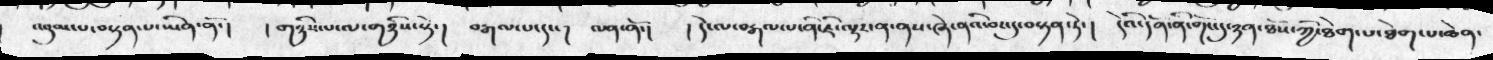འབུམ་པ་བསྟན་པ་ཡིན་ནོ་།   །གཉིས་པ་ལ་གཉིས་སྟེ་།   བརྒལ་པ་དང་། ལན་ནོ་། །དེ་ལ་བརྒལ་པ་ནི་ཇི་ལྟར་ན་ནས་ཞེ་ནའི་བར་དུ་བསྟན་ཏེ་།  དེའི་དོན་ནི་གོང་དུ་ཉན་ཐོས་ཀྱི་ཐེག་པ་ཐེག་པ་ཆེན་
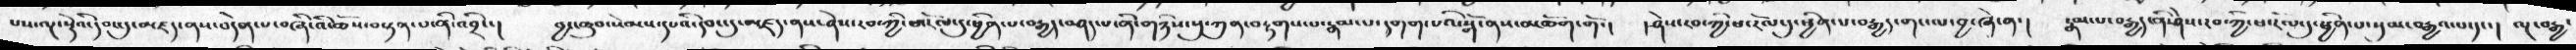པས་ལྔ་སྡེའི་དབང་དུ་མཛད་ནས་བདེན་པ་བཞི་འི་ཆོས་བསྟན་པ་ནི་འབྲིང་།   བྱང་ཆུབ་སེམས་དཔའི་དབང་དུ་མཛད་ནས་ཤེས་རབ་ཀྱི་ཕ་རོལ་དུ་ཕྱིན་པ་བརྒྱད་བཤད་པ་ནི་གཉིས་སུ་ཀུན་བརྟགས་པ་རྣམ་པ་དགག་པའི་སྒོ་ནས་མཆོག་གོ་།  །ཤེས་རབ་ཀྱི་ཕ་རོལ་དུ་ཕྱིན་པ་བརྒྱད་གང་ལ་བྱ་ཞེ་ན་།    རྣམ་པ་བརྒྱད་ནི་ཤེས་རབ་ཀྱི་ཕ་རོལ་དུ་ཕྱིན་པ་སུམ་བརྒྱའ་པ་དང་།   ལྔ་བརྒྱ་
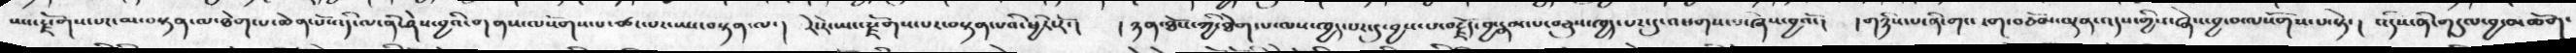པས་རྫོགས་པར་མ་བསྟན་ལ་ཐེག་པ་ཆེན་པོས་དེ་ལ་ནི་ཉེས་བྱའི་གནས་ལསོགས་པ་ཚང་ཡང་བསྟན་ལ་།  རེ་རེ་ཡང་རྫོགས་པར་བསྟན་པའི་ཕྱིར་རོ་།  །ཉན་ཐོས་ཀྱི་ཐེག་པ་ལས་ཁྱད་པར་དུ་བྱས་པ་བརྗོད་བྱ་རྣམ་པ་བཅུས་ཁྱད་པར་དུ་འཕགས་པ་ཞེས་བྱའོ་།  །གཉིས་པ་ནི་གང་དག་བཅོམ་ལྡན་འདས་གྱིས་ཞེས་བྱ་བ་ལསོགས་པ་སྟེ་། བདེས་ནི་གདུལ་བྱ་མཆོག་
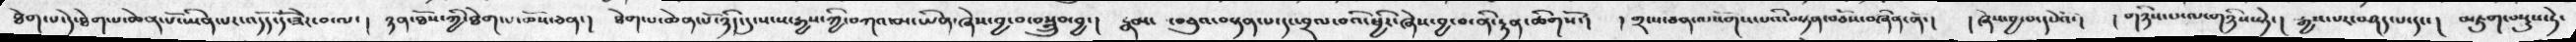ཐེག་པ་དེ་ཐེག་པ་ཆེན་པོ་ཡིན་པར་འདོད་དོ་ཟེར་བ་ལ་།  ཉན་ཐོས་ཀྱི་ཐེག་པ་ཆོས་ཅན་།  ཐེག་པ་ཆེན་པོ་ཉིད་དུ་སངས་རྒྱས་ཀྱི་བཀའ་མ་ཡིན་ཞེས་བྱ་བ་བསྒྲུབ་བྱ་།   རྣམ ་བཅུའ་བསྟན་པ་དང་བྲལ་བའི་ཕྱིར་ཞེས་བྱ་བ་ནི་རྟན་ཚིགསོ་།   །གྲངས་ཅན་ལསོགས་པའི་བསྟན་བཅོས་བཞིན་ནོ་།  །ཞེས་བྱ་བ་དཔེའོ་།   ། གཉིས་པ་ལ་གཉིས་སྟེ་།  རྒྱས་པར་བཤད་པ་དང་།  མཇུག་བསྡུས་དེ་
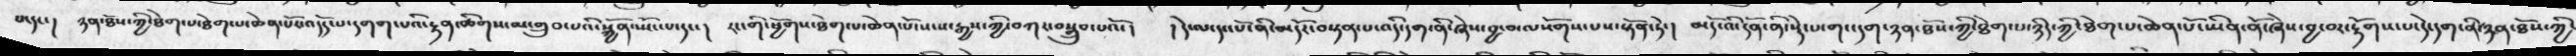པ་དང་།   ཉན་ཐོས་ཀྱི་ཐེག་པ་ཐེག་པ་ཆེན་པོར་འདོད་པ་དགག་པའི་རྟན་ཚིགས་མ་གྲུབ་པའི་སྐྱོན་སྤོང་པ་དང་།  རང་གི་ཕྱོགས་ཐེག་པ་ཆེན་པོ་སངས་རྒྱས་ཀྱི་བཀའ་བསྒྲུབ་པའོ་།   །དེ་ལ་དང་པོ་ནི་མདོར་བསྟན་པ་འདི་དག་ནི་ཞེས་བྱ་བ་ལསོགས་པས་སྟོན་དེ་།  མདོ་འི་དོན་ནི་སྡེ་པ་གང་དག་ཉན་ཐོས་ཀྱི་ཐེག་པ་ཉིད་ཀྱི་ཐེག་པ་ཆེན་པོ་ཡིན་ནོ་ཞེས་བྱ་བར་རྟོགས་པ་དེ་དག་ནི་ཉན་ཐོས་ཀྱི་
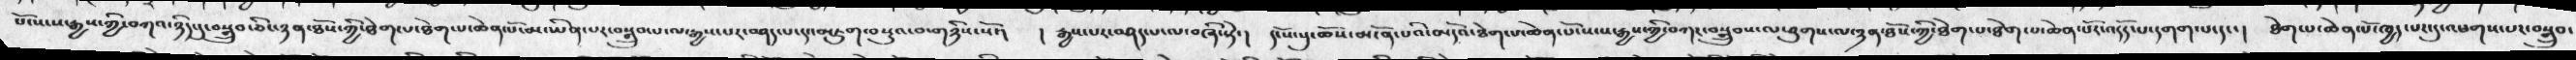པོ་སངས་རྒྱས་ཀྱི་བཀའ་ཉིད་དུ་བསྒྲུབ་ཅིང་ཉན་ཐོས་ཀྱི་ཐེག་པ་ཐེག་པ་ཆེན་པོ་མ་ཡིན་པར་བསྒྲུབ་པ་ལ་རྒྱས་པར་བཤད་པ་དང་འཇུག་བསྡུའ་བ་གཉིས་སོ་།     །རྒྱས་པར་བཤད་པ་བཞི་སྟེ་།  དངོས་སུ་ཆོས་མངོན་པའི་མདོའ་ཐེག་པ་ཆེན་པོ་སངས་རྒྱས་ཀྱི་བཀཌ་བསྒྲུབས་ལཕུགས་ལ་ཉན་ཐོས་ཀྱི་ཐེག་པ་ཆེན་པོར་འདོད་པ་དགག་པ་དང་།   ཐེག་པ་ཆེན་པོ་ཁྱད་པར་དུ་འཕགས་པར་བསྒྲུབ་
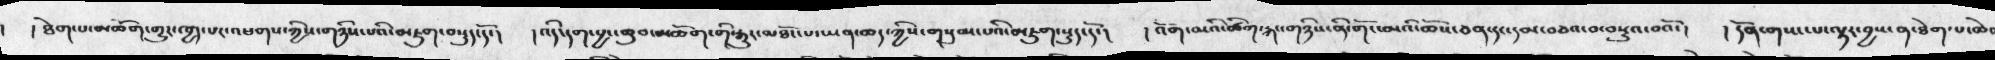། ཐེག་པ་མཆོག་གྱུར་ཁྱད་པར་འཕགས་ཀྱིས་གཉིས་པའི་མཇུག་བསྡུད་དོ་།   །འདི་དག་བྱང་ཆུབ་མཆོག་གི་རྒྱུར་མཐོང་པ་ཡན་ཆད་ཀྱིས་གསུམ་པའི་མཇུག་སྡུད་དོ་།   །འོག་མའི་ཚིག་རྐང་གཉིས་ནི་གོང་མའི་ཆོས་ཅན་དང་དམ་བཅའ་བ་བསྡུའ་བའོ་།   །དོན་གསང་པ་ལྟར་བྱས་ན་ཐེག་པ་ཆེ
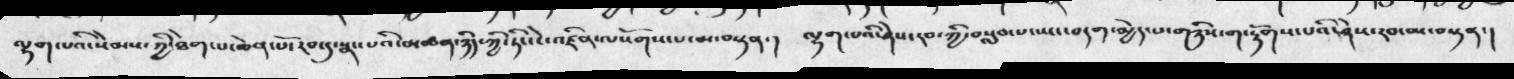ལྷག་པའི་སེམས་ཀྱི་ཐེག་པ་ཆེན་པོ་རབ་དུ་སྣང་པའི་མཚན་ཉིད་ཀྱི་ཏིང་ངེ་འཛིན་ལསོགས་པ་མ་བསྟན་།  ལྷག་པའི་ཤེས་རབ་ཀྱི་བསླབ་པ་ཡང་བདག་མྱེད་པ་གཉིས་ག་རྟོགས་པའི་ཤེས་རབ་མ་བསྟན་།
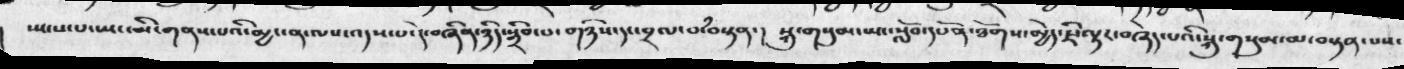སྤངས་པ་ཡང་མི་གནས་པའི་མྱ་ངན་ལས་འདས་པ་དེ་བཞིན་ཉིད་སྒྲིབ་པ་གཉིས་དང་བྲལ་བཾ་བསྟན་།  སྐུ་གསུམ་ཡང་སློབ་དཔོན་ཐོགས་མྱེད་ཇི་ལྟར་བཞེད་པའི་སྐུ་གསུམ་མ་བསྟན་པས་
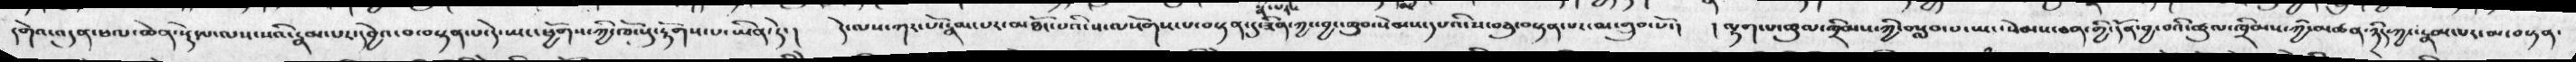དགེའ་འདུན་ཕལ་ཆེན་སྡེ་ལ་ལས་པའི་རྣམ་པར་དབྱེའ་བ་བསྟན་པ་དེ་ཡང་ཕྱོགས་ཀྱི་ཁོངསུ་རྟོགས་པ་ཡིན་ཏེ་།     དེ་ལས་ཀར་པོ་རྣམ་པར་མཐོང་པའི་ས་ལསོགས་པ་བསྟན་དུ་ཟིན་ཀྱང་བྱང་ཆུབ་སེམས་དཔའི་ས་བཅུ་བསྟན་པར་མ་གྲུབ་པོ་།  ། ལྷག་པ་ཚུལ་ཁྲིམས་ཀྱི་བསླབ་པ་ཡང་སེམས་ཅན་ཀྱི་དོན་བྱ་བའི་ཚུལ་ཁྲིམ་ཀྱི་མཚན་ཉིད་ཀྱང་རྣམ་པར་མ་བསྟན་
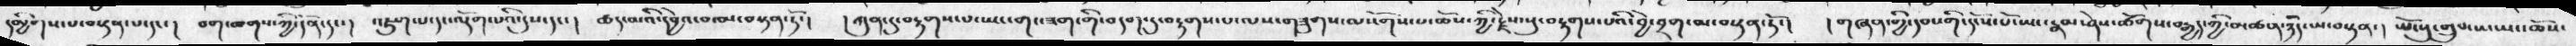དམྱིགས་པ་བསྟན་པ་དང་།   བག་ཆགས་ཀྱི་དོན་དང་།  འཇུག་པ་དང་ལྡོག་པའི་དུས་དང་།  ཚད་མའི་དབྱེའ་བ་མ་བསྟན་དོ་།  །ཀུན་དུ་བརྟགས་པ་ཡང་གང་ཟག་གི་བདག་དུ་བརྟགས་པ་ལས་གཟུགས་ལསོགས་པ་ཆོས་ཀྱི་རྗེས་སུ་བརྟགས་པའི་བྱེ་བྲག་མ་བསྟན་དོ་།   ། གཞན་གྱི་དབང་གི་དངོས་པོ་ཡང་རྣམ་ཤེས་ཚོགས་བརྒྱད་ཀྱི་མཚན་ཉིད་མ་བསྟན་།  ཡོངསུ་གྲུབ་པ་ཡང་ཆོས་
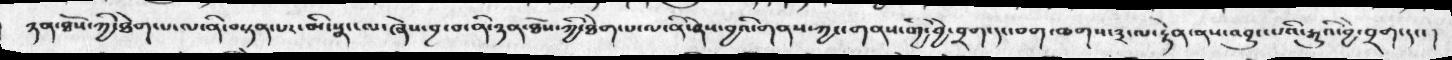ཉན་ཐོས་ཀྱི་ཐེག་པ་ལ་ནི་བསྟན་པར་མི་སྣང་ལ་ཞེས་བྱ་བ་ནི་ཉན་ཐོས་ཀྱི་ཐེག་པ་ལ་ནི་ཤེས་བྱའི་གནས་ཀྱང་གནས་གྱི་བྱེ་བྲག་དང་བག་ཆགས་༣་ལ་རྟེན་ནས་འབྱུང་པའི་རྒྱུའི་བྱེ་བྲག་དང་།
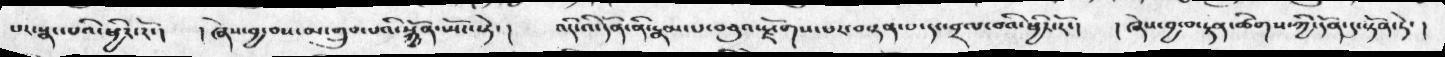པར་སྣང་པའི་ཕྱིར་རོ་།   ། ཞེས་བྱ་བས་མ་གྲུབ་པའི་སྐྱོན་ཡོད་ཏེ་།    འདི་འི་དོན་ནི་རྣམ་པ་བཅུའ་སྫོགས་པར་བསྟན་པ་དང་བྲལ་བའི་ཕྱིར་རོ་།   ། ཞེས་བྱ་བ་རྟན་ཚིགས་ཀྱི་དོན་དུ་སྟོན་དེ་ །
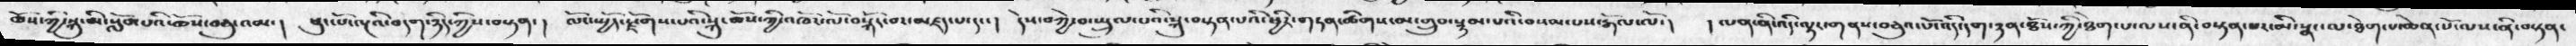ཆོས་ཀྱི་སྐུ་མི་སློབ་པའི་ཆོས་བཅུ་འམ་།  ཕུང་པོ་ལྔའི་བདག་ཉིད་ཀྱིས་བསྟན་།  ལོང་སྤྱོད་རྫོགས་པའི་སྐུ་ཆོས་ཀྱི་འཁོར་ལོ་བསྐོར་བ་མཛད་པ་དང་།  དེས་བཀྱེ་བ་སྤྲུལ་པའི་སྐུ་བསྟན་པའི་ཕྱིར་གཏན་ཚིགས་མ་གྲུབ་སྙམ་པའི་བསམ་པས་རྒོལ་ལོ་།  ། ལན་ནི་འདི་ལྟར་གནས་བཅུའ་པོ་འདི་དག་ཉན་ཐོས་ཀྱི་ཐེག་པ་ལས་ནི་བསྟན་པར་མི་སྣང་ལ་ཐེག་པ་ཆེན་པོ་ལས་ནི་བསྟན་
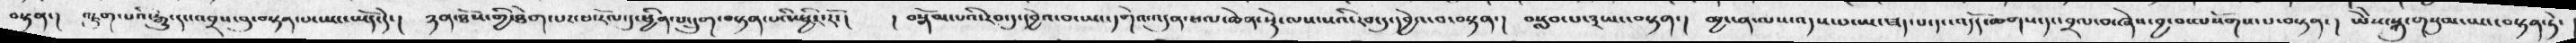བསྟན་།  འཇུག་པའི་རྒྱུ་དང་འབྲས་བུ་བསྟན་པ་ཡང་ཡོད་དེ་།   ཉན་ཐོས་གྱི་ཐེག་པར་ཕ་རོལ་དུ་ཕྱིན་པ་དྲུག་བསྟན་པའི་ཕྱིར་རོ་།   ། བསྒོམ་པའི་རབ་དུ་དབྱེའ་བ་ཡང་དགེའ་འདུན་ཕལ་ཆེན་སྡེ་ལས་སའི་རབ་དུ་དབྱེའ་བ་བསྟན་།  བསླབ་པ་༣ཡང་བསྟན་།  མྱ་ངན་ལས་འདས་པ་ཡང་ཟད་པ་དང་འདོད་ཆགས་དང་བྲལ་བ་ཞེས་བྱ་བ་ལསོགས་པ་བསྟན་།  ཡེེས་སྐུ་གསུམ་ཡང་བསྟན་དེ་
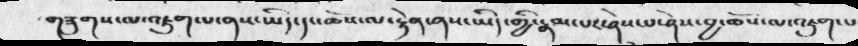གཟུགས་ལ་འཇུག་པ་ནས་ཡིད་དང་ཆོས་ལ་རྟེན་ནས་ཡིད་གྱི་རྣམ་པར་ཤེས་པ་ཤེས་བྱ་ཆོས་ལ་འཇུག་པ
